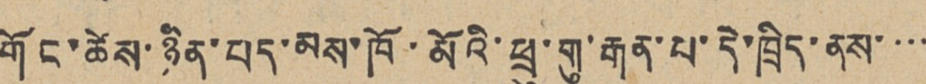གོང་ཚེས་ཉིན་པད་མས་ཁོ་མོའི་ཕྲུ་གུ་རྒན་པ་དེ་ཁྲིད་ནས་་་་
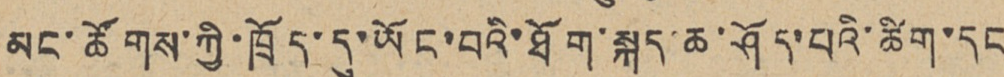མང་ཚོགས་ཀྱི་ཁྲོད་དུ་ཡོང་བའི་ཐོག་སྐད་ཆ་ཤོད་པའི་ཚིག་དང
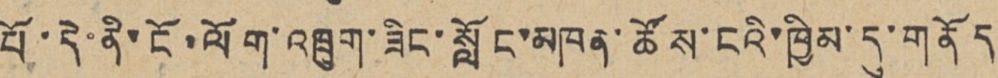པོ་དེ་ནི་ངོ་ལོག་འཁྲུག་ཟིང་སློང་མཁན་ཚོས་ངའི་ཁྱིམ་དུ་གནོད
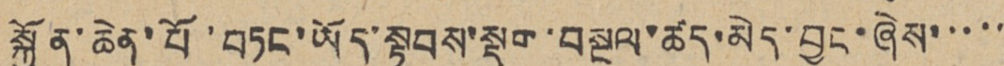སྐྱོན་ཆེན་པོ་བཏང་ཡོད་སྟབས་སྡུག་བསྔལ་ཚད་མེད་བྱུང་ཞེས་་་་་
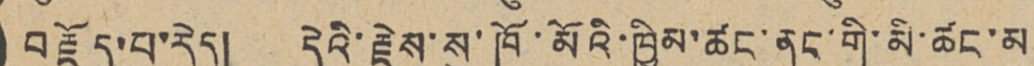བརྗོད་པ་རེད། དེའི་རྗེས་སུ་ཁོ་མོའི་ཁྱིམ་ཚང་ནང་གི་མི་ཚང་མ
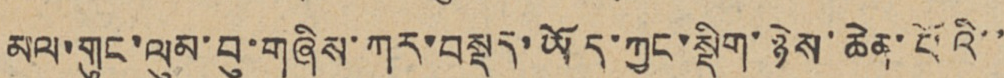མལ་གུང་ལུམ་བུ་གཞིས་ཀར་བསྡད་ཡོད་ཀྱང་སྡིག་ཉེས་ཆེན་པོའི་་
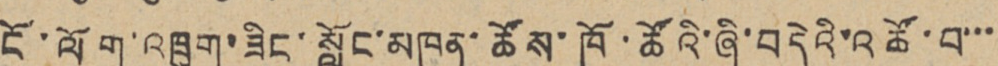ངོ་ལོག་འཁྲུག་ཟིང་སློང་མཁན་ཚོས་ཁོ་ཚོའི་ཞི་བདེའི་འཚོ་བ་་་
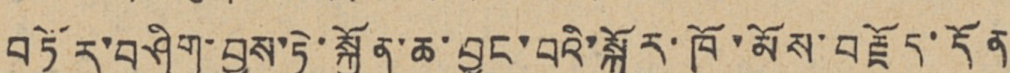བཏོར་བཤིག་བྱས་ཏེ་སྐྱོན་ཆ་བྱུང་བའི་སྐོར་ཁོ་མོས་བརྗོད་དོན
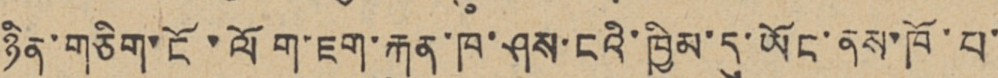ཉིན་གཅིག་ངོ་ལོག་ཇག་རྐུན་ཁ་ཤས་ངའི་ཁྱིམ་དུ་ཡོང་ནས་ཁོ་བ་
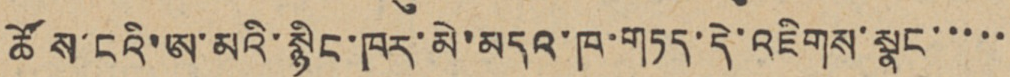ཚོས་ངའི་ཨ་མའི་སྙིང་ཁར་མེ་མདའ་ཁ་གཏད་དེ་འཇིགས་སྣང་་་་་
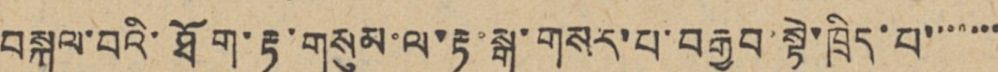བསྐུལ་བའི་ཐོག་རྟ་གསུམ་ལ་རྟ་སྒ་གསར་པ་བརྒྱབ་སྟེ་ཁྲིད་པ་་་་་་་
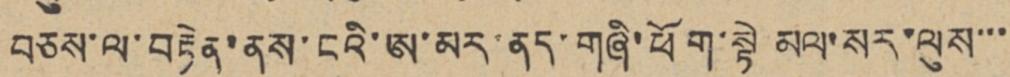བཅས་ལ་བརྟེན་ནས་ངའི་ཨ་མར་ནད་གཞི་ཕོག་སྟེ མལ་སར་ལུས་་་
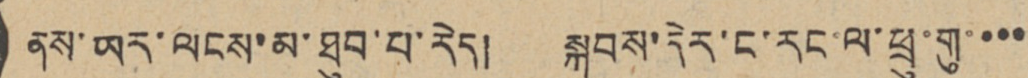ནས་ཡར་ལངས་མ་ཐུབ་པ་རེད། སྐབས་དེར་ང་རང་ལ་ཕྲུ་གུ་་་་
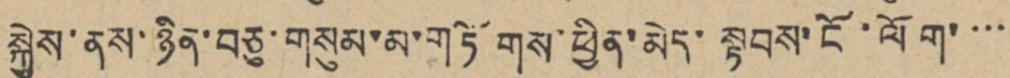སྐྱེས་ནས་ཉིན་བཅུ་གསུམ་མ་གཏོགས་ཕྱིན་མེད་སྟབས་ངོ་ལོག་་་་
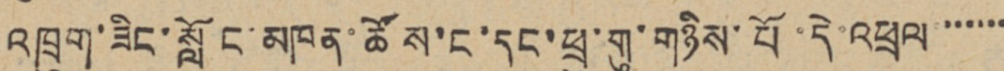འཁྲུག་ཟིང་སློང་མཁན་ཚོས་ང་དང་ཕྲུ་གུ་གཉིས་པོ་དེ་འཕྲལ་་་་་་་
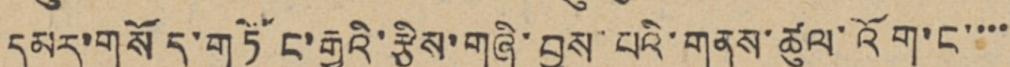དམར་གསོད་གཏོང་རྒྱུའི་རྩིས་གཞི་བྱས་པའི་གནས་ཚུལ་འོག་ང་་་་
